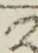༢
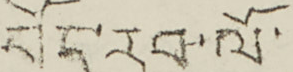བོད་རབ་ལོ་
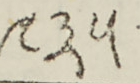༩༣༥
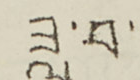ཟླ་བ་
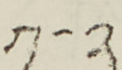༡-༢
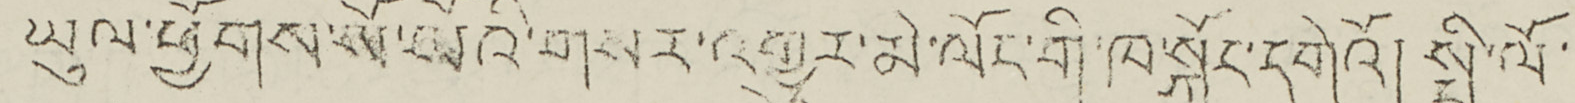ཡུལ་ཕྱོགས་སོ་སོའི་གསར་འགྱུར་མེ་ལོང་གི་ཁ་སྐོང་དགེའོ། སྤྱི་ལོ་
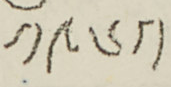༡༩༦༡
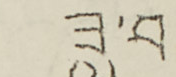ཟླ་བ་
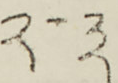༢-༣
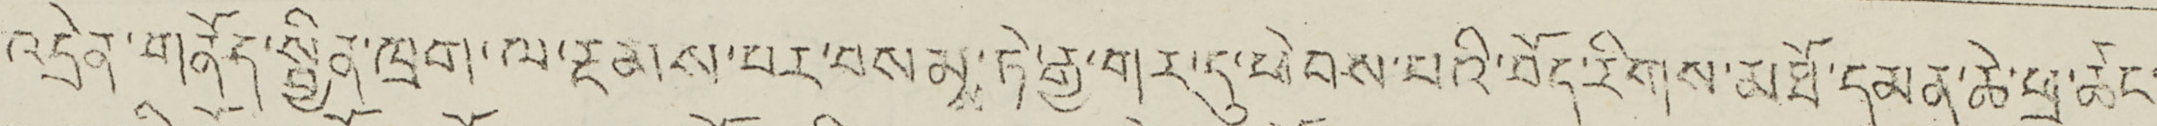འདྲེན་གནོད་སྦྱིན་ཁྲག་ལ་རྔམས་པར་བསམས་ཏེ་རྒྱ་གར་དུ་ཕེབས་པའི་བོད་རིགས་མཐོ་དམན་ཆེ་ཕྲ་ཚང་
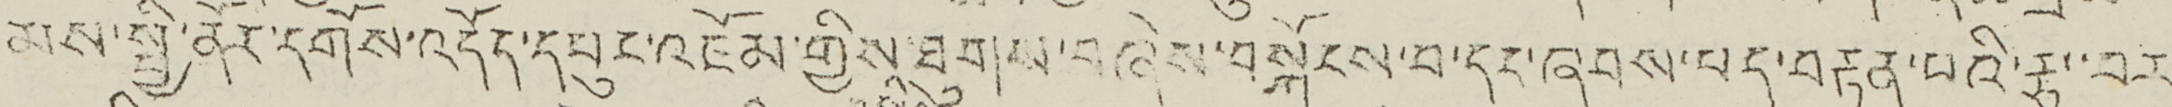མས་སྤྱི་ནོར་དགོས་འདོད་དཔུང་འཇོམ་གྱིས་ཐུགས་བཞེས་བསྐོངས་བ་དང་ཞབས་པད་བརྟན་པའི་རྩ་བར་
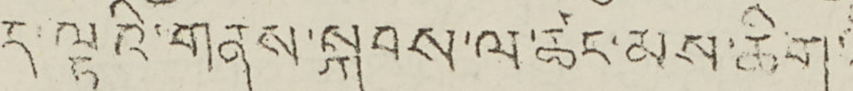ད་ལྟའི་གནས་སྐབས་ལ་ཚང་མས་ཆིག་
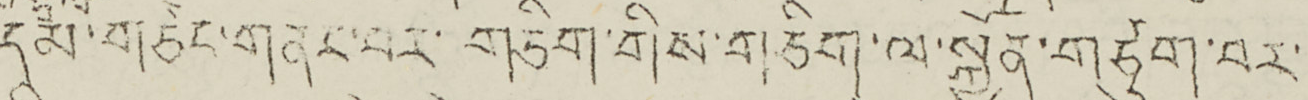དམ་གཙང་གནང་བར་གཅིག་གིས་གཅིག་ལ་སྐྱོན་གཙུག་བར་
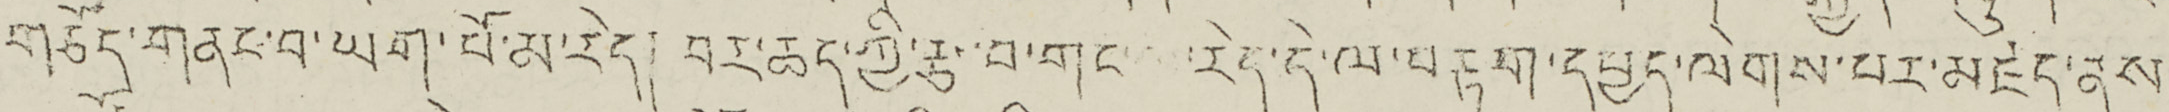གཙོད་གནང་བ་ཡག་པོ་མ་རེད། བར་ཆད་ཀྱི་རྩ་བ་གང་ རེད་དེ་ལ་བརྟག་དཔྱད་ལེགས་པར་མཛད་ནས་
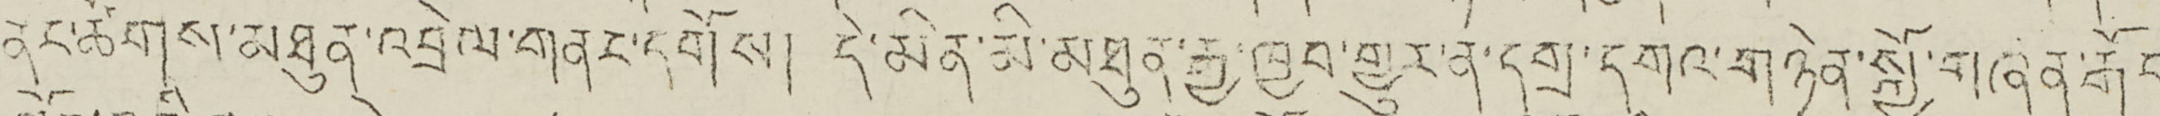ནང་ཚོགས་མཐུན་འབྲེལ་གནང་དགོས། དེ་མིན་མི་མཐུན་རྒྱ་ཁྱབ་གྱུར་ན་དགྲ་དགའ་གཉེན་སྐྱོ་གཞན་རྒོད་
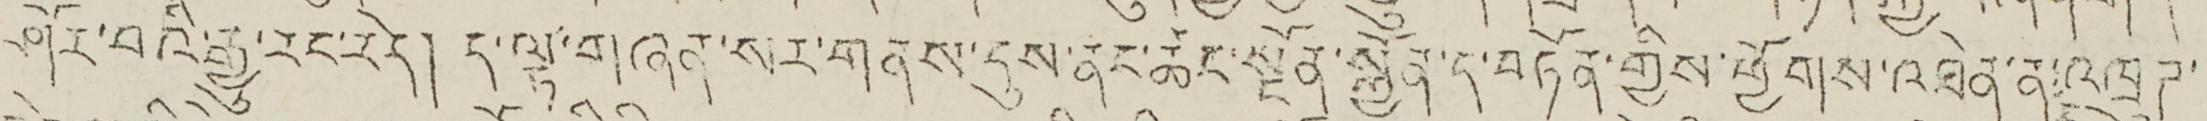ཤོར་བའི་རྒྱུ་རང་རེད། ད་ལྟ་གཞན་སར་གནས་དུས་ནང་ཚང་སྔོན་སྐྱོན་ད་བཏོན་གྱིས་ཕྱོགས་འཐེན་ན་འཁྲུཊ་
